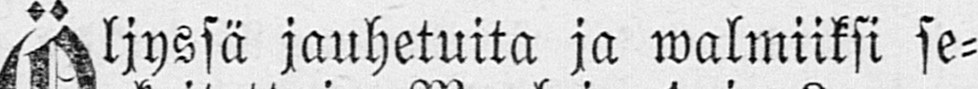Öljyssä jauhetuita ja walmiiksi se-
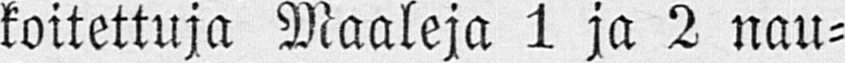koitettuja Maaleja 1 ja 2 nau-
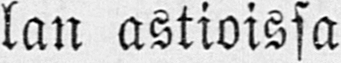lan astioissa
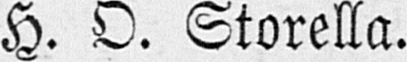H. O. Storella.
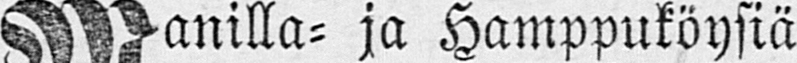Manilla- ja Hamppuköysiä
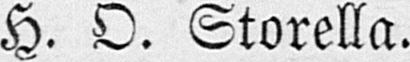H. O. Storella.
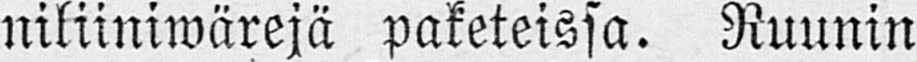Aniliiniwärejä paketeissa. Ruunin
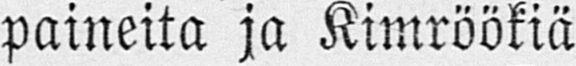paineita ja Kimröökiä
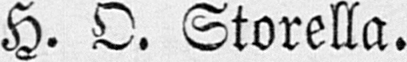H. O. Storella.
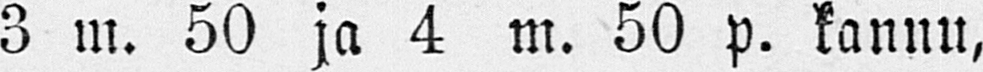3 m. 50 ja 4 m. 50 p. kannu,
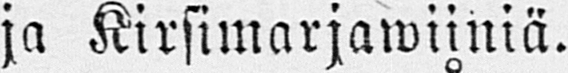ja Kirsimarjawiiniä.
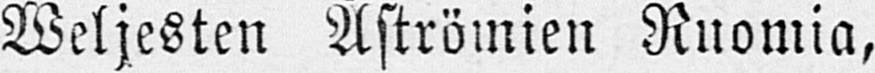Weljesten Åströmien Ruomia,
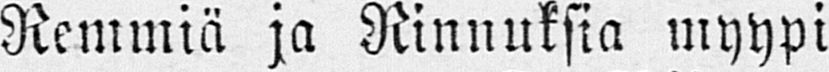Remmiä ja Rinnuksia myypi
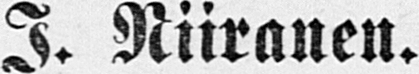I. Niiranen.
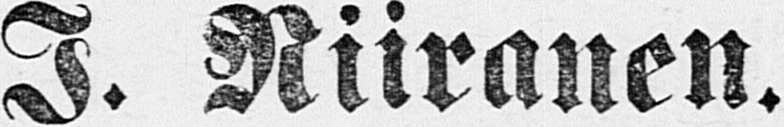I. Niiranen.
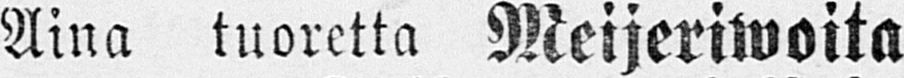Aina tuoretta Meijeriwoita
